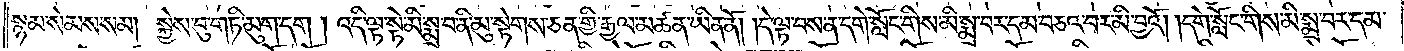སྙམ་སེམས་སམ། སྐྱེས་བུ་གཏི་མུག་དག །འདི་ལྟ་སྟེ་མི་སྨྲ་བ་ནི་མུ་སྟེགས་ཅན་གྱི་རྒྱལ་མཚན་ཡིན་ནོ། །དེ་ལྟ་བས་ན་དགེ་སློང་གིས་མི་སྨྲ་བར་དམ་བཅའ་བར་མི་བྱའོ། །དགེ་སློང་གིས་མི་སྨྲ་བར་དམ་
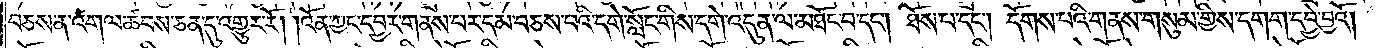བཅས་ན་འགལ་ཚབས་ཅན་དུ་འགྱུར་རོ། །འོན་ཀྱང་དབྱར་གནས་པར་དམ་བཅས་པའི་དགེ་སློང་གིས་དགེ་འདུན་ལ་མཐོང་བ་དང༌། ཐོས་པ་དང༌། དོགས་པའི་གནས་གསུམ་གྱིས་དགག་དབྱེ་བྱའོ། །
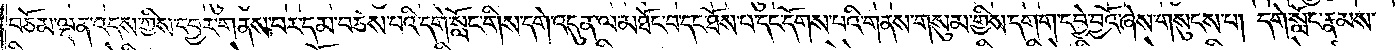བཅོམ་ལྡན་འདས་ཀྱིས་དབྱར་གནས་པར་དམ་བཅས་པའི་དགེ་སློང་གིས་དགེ་འདུན་ལ་མཐོང་བ་དང་ཐོས་པ་དང་དོགས་པའི་གནས་གསུམ་གྱིས་དགག་དབྱེ་བྱའོ་ཞེས་གསུངས་པ། དགེ་སློང་རྣམས་
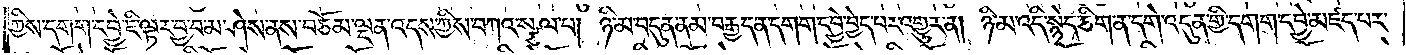ཀྱིས་དགག་དབྱེ་ཇི་ལྟར་བྱ་བ་མ་ཤེས་ནས་བཅོམ་ལྡན་འདས་ཀྱིས་བཀའ་སྩལ་པ། ཉི་མ་བདུན་ནམ་བརྒྱད་ན་དགག་དབྱེ་བྱེད་པར་འགྱུར་ན། ཉི་མ་འདི་སྙེད་ཅིག་ན་དགེ་འདུན་གྱི་དགག་དབྱེ་མཛད་པར་
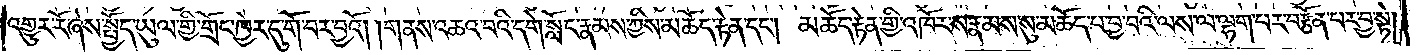འགྱུར་རོ་ཞེས་སྤྱོད་ཡུལ་གྱི་གྲོང་ཁྱེར་དུ་གོ་བར་བྱའོ། །གནས་འཆའ་བའི་དགེ་སློང་རྣམས་ཀྱིས་མཆོད་རྟེན་དང༌། མཆོད་རྟེན་གྱི་འཁོར་ས་རྣམས་སུ་མཆོད་པ་བྱ་བའི་ལས་ལ་ལྷག་པར་བརྩོན་པར་བྱ་སྟེ།
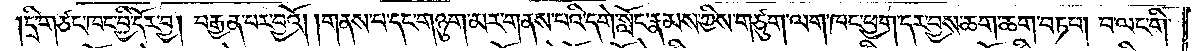དྲི་གཙང་ཁང་བྱི་དོར་བྱ། བརྒྱན་པར་བྱའོ། །གནས་པ་དང་གཉུག་མར་གནས་པའི་དགེ་སློང་རྣམས་ཀྱིས་གཙུག་ལག་ཁང་ཕྱག་དར་བྱས་ཆག་ཆག་བཏབ། བ་ལང་གི་
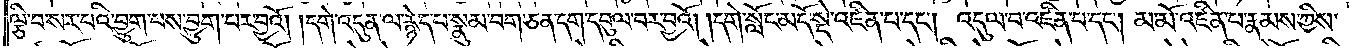ལྕི་བ་སར་པའི་བྱུག་པས་བྱུག་པར་བྱའོ། །དགེ་འདུན་ལ་རྙེད་པ་སྣུམ་བག་ཅན་དག་དབུལ་བར་བྱའོ། །དགེ་སློང་མདོ་སྡེ་འཛིན་པ་དང༌། འདུལ་བ་འཛིན་པ་དང༌། མ་མོ་འཛིན་པ་རྣམས་ཀྱིས་
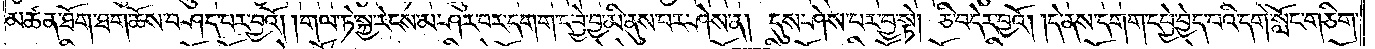མཚན་ཐོག་ཐག་ཆོས་བཤད་པར་བྱའོ། །གལ་ཏེ་སྐྱ་རེངས་མ་ཤར་བར་དགག་དབྱེ་བྱ་མི་ནུས་པར་ཤེས་ན། དུས་ཤེས་པར་བྱ་སྟེ། ཅི་བདེར་བྱའོ། །དེ་ནས་དགག་དབྱེ་བྱེད་པའི་དགེ་སློང་གཅིག་
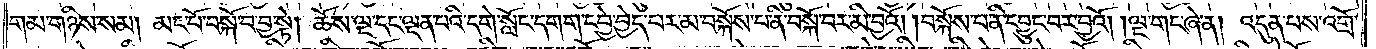གམ་གཉིས་སམ། མང་པོ་བསྐོ་བ་བྱ་སྟེ། ཆོས་ལྔ་དང་ལྡན་པའི་དགེ་སློང་དགག་དབྱེ་བྱེད་པར་མ་བསྐོས་པ་ནི་བསྐོ་བར་མི་བྱའོ། །བསྐོས་པ་ནི་དབྱུང་བར་བྱའོ། །ལྔ་གང་ཞེ་ན། འདུན་པས་འགྲོ་
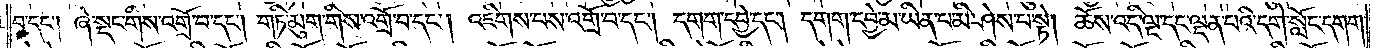བ་དང༌། ཞེ་སྡང་གིས་འགྲོ་བ་དང༌། གཏི་མུག་གིས་འགྲོ་བ་དང༌། འཇིགས་པས་འགྲོ་བ་དང༌། དགག་དབྱེ་དང༌། དགག་དབྱེ་མ་ཡིན་པ་མི་ཤེས་པ་སྟེ། ཆོས་འདི་ལྔ་དང་ལྡན་པའི་དགེ་སློང་དགག་
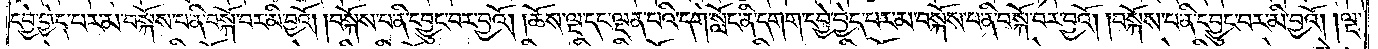དབྱེ་བྱེད་པར་མ་བསྐོས་པ་ནི་བསྐོ་བར་མི་བྱའོ། །བསྐོས་པ་ནི་དབྱུང་བར་བྱའོ། །ཆོས་ལྔ་དང་ལྡན་པའི་དགེ་སློང་ནི་དགག་དབྱེ་བྱེད་པར་མ་བསྐོས་པ་ནི་བསྐོ་བར་བྱའོ། །བསྐོས་པ་ནི་དབྱུང་བར་མི་བྱའོ། །ལྔ་
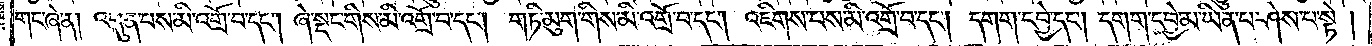གང་ཞེ་ན། འདུན་པས་མི་འགྲོ་བ་དང༌། ཞེ་སྡང་གིས་མི་འགྲོ་བ་དང༌། གཏི་མུག་གིས་མི་འགྲོ་བ་དང༌། འཇིགས་པས་མི་འགྲོ་བ་དང༌། དགག་དབྱེ་དང༌། དགག་དབྱེ་མ་ཡིན་པ་ཤེས་པ་སྟེ།
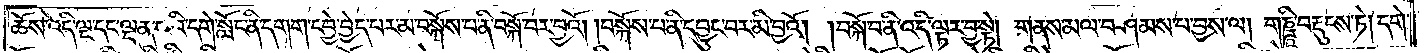ཆོས་འདི་ལྔ་དང་ལྡན་པའི་དགེ་སློང་ནི་དགག་དབྱེ་བྱེད་པར་མ་བསྐོས་པ་ནི་བསྐོ་བར་བྱའོ། །བསྐོས་པ་ནི་དབྱུང་བར་མི་བྱའོ། །བསྐོ་བ་ནི་འདི་ལྟར་བྱ་སྟེ། གནས་མལ་བཤམས་པ་བྱས་ལ། གཎྜཱི་བརྡུངས་ཏེ། དགེ་
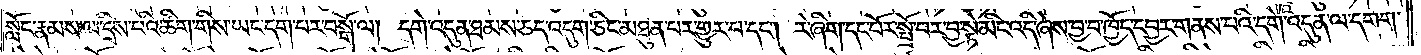སློང་རྣམས་ལ་དྲིས་པའི་ཚིག་གིས་ཡང་དག་པར་བསྒོ་ལ། དགེ་འདུན་ཐམས་ཅད་འདུག་ཅིང་མཐུན་པར་གྱུར་པ་དང༌། རེ་ཞིག་དང་པོར་སྤྲོ་བར་བྱ་སྟེ་མིང་འདི་ཞེས་བྱ་བ་ཁྱོད་དབྱར་གནས་པའི་དགེ་འདུན་ལ་དགག་
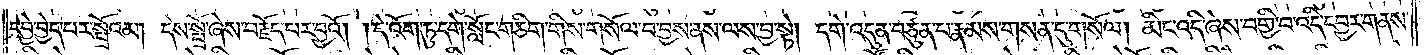དབྱེ་བྱེད་པར་སྤྲོའམ། དེས་སྤྲོ་ཞེས་བརྗོད་པར་བྱའོ། །དེ་འོག་ཏུ་དགེ་སློང་གཅིག་གིས་གསོལ་བ་བྱས་ནས་ལས་བྱ་སྟེ། དགེ་འདུན་བཙུན་པ་རྣམས་གསན་དུ་གསོལ། མིང་འདི་ཞེས་བགྱི་བ་འདི་དབྱར་གནས་
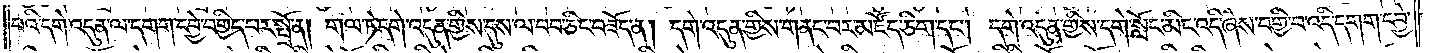པའི་དགེ་འདུན་ལ་དགག་དབྱེ་བགྱིད་པར་སྤྲོ་ན། གལ་ཏེ་དགེ་འདུན་གྱིས་དུས་ལ་བབ་ཅིང་བཟོད་ན། དགེ་འདུན་གྱིས་གནང་བར་མཛོད་ཅིག་དང༌། དགེ་འདུན་གྱིས་དགེ་སློང་མིང་འདི་ཞེས་བགྱི་བ་འདི་དགག་དབྱེ་
